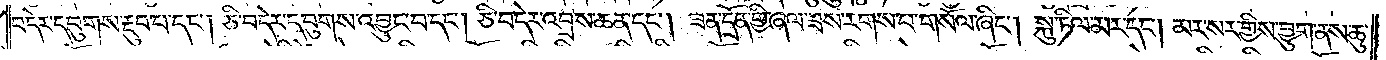བདེར་དབུགས་རྔུབ་པ་དང༌། ཅི་བདེར་དབུགས་འབྱུང་བ་དང༌། ཅི་བདེར་འབྲས་ཆན་དང༌། ཟན་དྲོན་གྱི་ཞལ་ཟས་རགས་པ་གསོལ་ཞིང༌། སྐུ་ཏིལ་མར་དང༌། མར་སར་གྱིས་བྱུག་ནས་ཆུ་
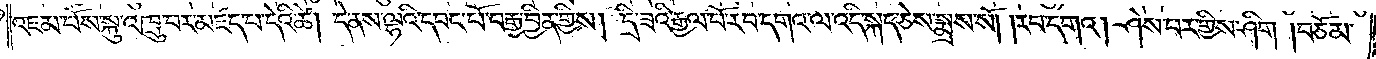འཇམ་པོས་སྐུ་འཁྲུ་བར་མཛད་པ་དེའི་ཚེ། དེ་ནས་ལྷའི་དབང་པོ་བརྒྱ་བྱིན་གྱིས། དྲི་ཟའི་རྒྱལ་པོ་རབ་དགའ་ལ་འདི་སྐད་ཅེས་སྨྲས་སོ། །རབ་དགའ། ཤེས་པར་གྱིས་ཤིག །བཅོམ་
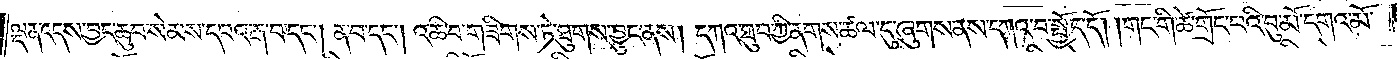ལྡན་འདས་བྱང་ཆུབ་སེམས་དཔའ་རྒ་བ་དང༌། ན་བ་དང༌། འཆི་བ་གཟིགས་ཏེ་ཐུགས་བྱུང་ནས། དཀའ་ཐུབ་ཀྱི་ནགས་ཚལ་དུ་ཞུགས་ནས་དཀའ་བ་སྤྱོད་དོ། །གང་གི་ཚེ་གྲོང་བའི་བུ་མོ་དགའ་མོ་
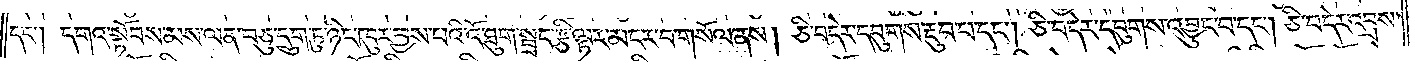དང༌། དགའ་སྟོབས་མས་ལན་བཅུ་དྲུག་ཏུ་ཉིང་ཁུར་བྱས་པའི་འོ་ཐུག་སྦྲང་རྩི་ལྟར་མངར་བ་གསོལ་ནས། ཅི་བདེར་དབུགས་རྔུབ་པ་དང༌། ཅི་བདེར་དབུགས་འབྱུང་བ་དང༌། ཅི་བདེར་འབྲས་
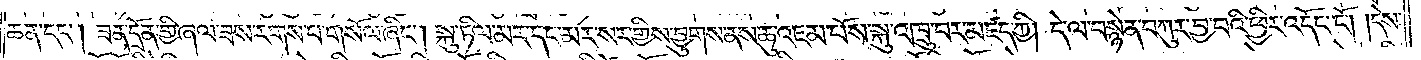ཆན་དང༌། ཟན་དྲོན་གྱི་ཞལ་ཟས་རགས་པ་གསོལ་ཞིང༌། སྐུ་ཏིལ་མར་དང་མར་སར་གྱིས་བྱུགས་ནས་ཆུ་འཇམ་པོས་སྐུ་འཁྲུ་བར་མཛད་ཀྱི། དེ་ལ་བསྙེན་བཀུར་བྱ་བའི་ཕྱིར་འདོང་ངོ༌། །དེས་
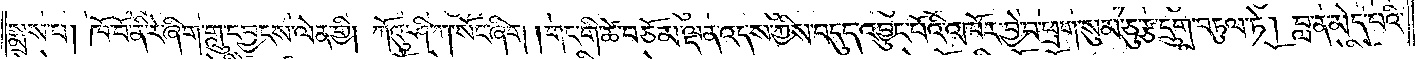སྨྲས་པ། ཁོ་བོ་ནི་རེ་ཞིག་གླུ་དབྱངས་ལེན་གྱི། ཀོའུ་ཤི་ཀ་སོང་ཞིག །གང་གི་ཚེ་བཅོམ་ལྡན་འདས་ཀྱིས་བདུད་འབྱུང་པོའི་འཁོར་བྱེ་བ་ཕྲག་སུམ་ཅུ་རྩ་དྲུག་བཏུལ་ཏེ། བླ་ན་མེད་པའི་
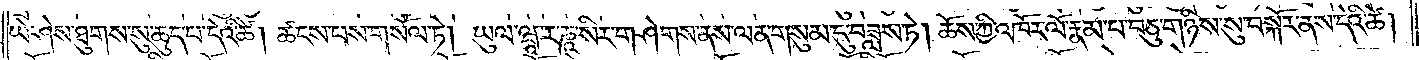ཡེ་ཤེས་ཐུགས་སུ་ཆུད་པ་དེའི་ཚེ། ཚངས་པས་གསོལ་ཏེ། ཡུལ་ཝཱ་ར་ཎཱ་སིར་གཤེགས་ནས་ལན་གསུམ་དུ་བཟླས་ཏེ། ཆོས་ཀྱི་འཁོར་ལོ་རྣམ་པ་བཅུ་གཉིས་སུ་བསྐོར་ནས་དེའི་ཚེ།
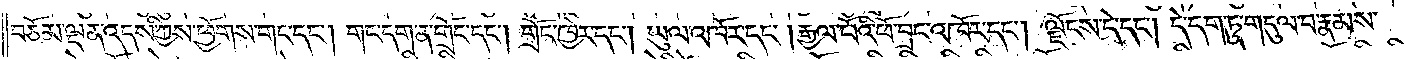བཅོམ་ལྡན་འདས་ཀྱིས་ཕྱོགས་གང་དང༌། གང་དག་ན་གྲོང་དང༌། གྲོང་ཁྱེར་དང༌། ཡུལ་འཁོར་དང༌། རྒྱལ་པོའི་ཕོ་བྲང་འཁོར་དང༌། ལྗོངས་དེ་དང༌། དེ་དག་ཏུ་གདུལ་བ་རྣམས་
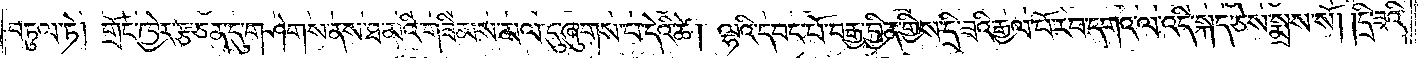བཏུལ་ཏེ། གྲོང་ཁྱེར་རྩ་ཅན་དུ་གཤེགས་ནས་ཐ་མའི་གཟིམས་མལ་དུ་ཞུགས་པ་དེའི་ཚེ། ལྷའི་དབང་པོ་བརྒྱ་བྱིན་གྱིས་དྲི་ཟའི་རྒྱལ་པོ་རབ་དགའ་ལ་འདི་སྐད་ཅེས་སྨྲས་སོ། །དྲི་ཟའི་
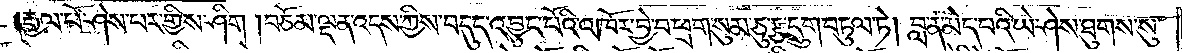རྒྱལ་པོ་ཤེས་པར་གྱིས་ཤིག །བཅོམ་ལྡན་འདས་ཀྱིས་བདུད་འབྱུང་པོའི་འཁོར་བྱེ་བ་ཕྲག་སུམ་ཅུ་རྩ་དྲུག་བཏུལ་ཏེ། བླ་ན་མེད་པའི་ཡེ་ཤེས་ཐུགས་སུ་
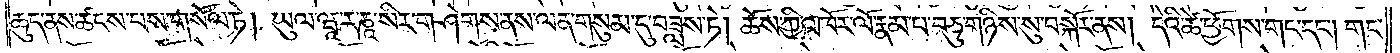ཆུད་ནས་ཚངས་པས་གསོལ་ཏེ། ཡུལ་ཝཱ་ར་ཎཱ་སིར་གཤེགས་ནས་ལན་གསུམ་དུ་བཟླས་ཏེ། ཆོས་ཀྱི་འཁོར་ལོ་རྣམ་པ་བཅུ་གཉིས་སུ་བསྐོར་ནས། དེའི་ཚེ་ཕྱོགས་གང་དང༌། གང་
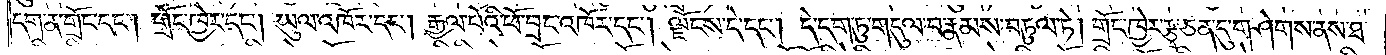དག་ན་གྲོང་དང༌། གྲོང་ཁྱེར་དང༌། ཡུལ་འཁོར་དང༌། རྒྱལ་པོའི་ཕོ་བྲང་འཁོར་དང༌། ལྗོངས་དེ་དང༌། དེ་དག་ཏུ་གདུལ་བ་རྣམས་བཏུལ་ཏེ། གྲོང་ཁྱེར་རྩྭ་ཅན་དུ་གཤེགས་ནས་ཐ་
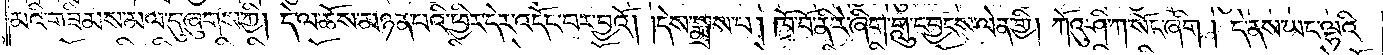མའི་གཟིམས་མལ་དུ་ཞུགས་ཀྱི། དེ་ལ་ཆོས་མཉན་པའི་ཕྱིར་དེར་འདོང་བར་བྱའོ། །དེས་སྨྲས་པ། ཁོ་བོ་ནི་རེ་ཞིག་གླུ་དབྱངས་ལེན་གྱི། ཀོའུ་ཤི་ཀ་སོང་ཞིག། དེ་ནས་ཡང་ལྷའི་
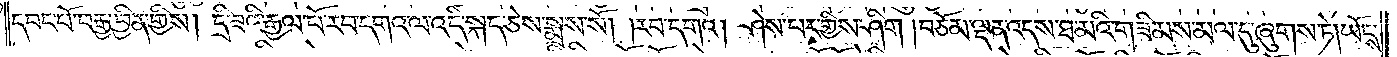དབང་པོ་བརྒྱ་བྱིན་གྱིས། དྲི་ཟའི་རྒྱལ་པོ་རབ་དགའ་ལ་འདི་སྐད་ཅེས་སྨྲས་སོ། །རབ་དགའ། ཤེས་པར་གྱིས་ཤིག །བཅོམ་ལྡན་འདས་ཐ་མའི་གཟིམས་མལ་དུ་ཞུགས་ཏེ། ཡོངས་
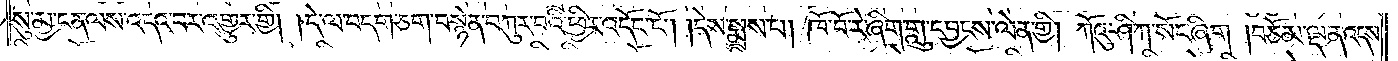སུ་མྱ་ངན་ལས་འདའ་བར་འགྱུར་གྱི། །དེ་ལ་བདག་ཅག་བསྙེན་བཀུར་བའི་ཕྱིར་འདོང་ངོ༌། །དེས་སྨྲས་པ། ཁོ་བོ་རེ་ཞིག་གླུ་དབྱངས་ལེན་གྱི། ཀོའུ་ཤི་ཀ་སོང་ཞིག །བཅོམ་ལྡན་འདས་
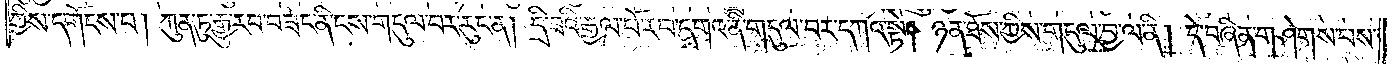ཀྱིས་དགོངས་པ། ཀུན་ཏུ་རྒྱུ་རབ་བཟང་ནི་ངས་གདུལ་བར་རུང་ན། དྲི་ཟའི་རྒྱལ་པོ་རབ་དགའ་ནི་གདུལ་བར་དཀའ་སྟེ། ཉན་ཐོས་ཀྱིས་གདུལ་བྱ་ལ་ནི། དེ་བཞིན་གཤེགས་པས་
